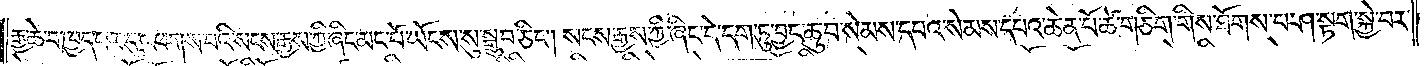རྒྱ་ཆེ་བ་ཁྱད་པར་དུ་འཕགས་པའི་སངས་རྒྱས་ཀྱི་ཞིང་མང་པོ་ཡོངས་སུ་སྒྲུབ་ཅིང༌། སངས་རྒྱས་ཀྱི་ཞིང་དེ་དག་ཏུ་བྱང་ཆུབ་སེམས་དཔའ་སེམས་དཔའ་ཆེན་པོ་ཚེ་གཅིག་གིས་ཐོགས་པ་ཤ་སྟག་སྐྱེ་བར་
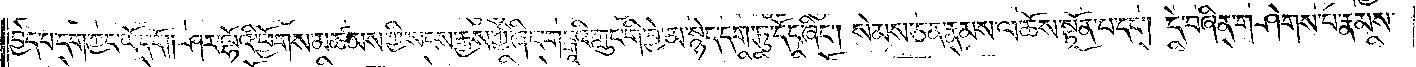བྱེད་པ་དག་ཀྱང་ཡོད་དོ༎ ཤར་ལྷོའི་ཕྱོགས་མཚམས་ཀྱི་སངས་རྒྱས་ཀྱི་ཞིང་གངྒཱའི་ཀླུང་གི་བྱེ་མ་སྙེད་དག་ཏུ་དོང་ཞིང༌། སེམས་ཅན་རྣམས་ལ་ཆོས་སྟོན་པ་དང༌། དེ་བཞིན་གཤེགས་པ་རྣམས་
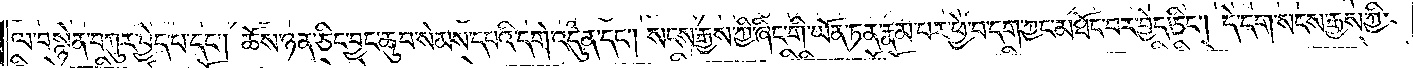ལ་བསྙེན་བཀུར་བྱེད་པ་དང༌། ཆོས་ཉན་ཅིང་བྱང་ཆུབ་སེམས་དཔའི་དགེ་འདུན་དང༌། སངས་རྒྱས་ཀྱི་ཞིང་གི་ཡོན་ཏན་རྣམ་པར་ཕྱེ་བ་དག་ཀྱང་མཐོང་བར་བྱེད་ཅིང༌། དེ་དག་སངས་རྒྱས་ཀྱི་
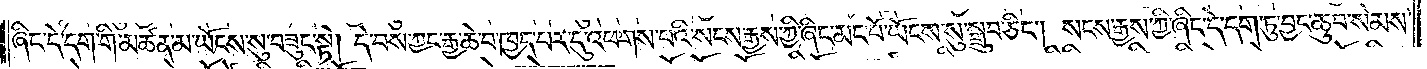ཞིང་དེ་དག་གི་མཚན་མ་ཡོངས་སུ་བཟུང་སྟེ། དེ་བས་ཀྱང་རྒྱ་ཆེ་བ་ཁྱད་པར་དུ་འཕགས་པའི་སངས་རྒྱས་ཀྱི་ཞིང་མང་པོ་ཡོངས་སུ་སྒྲུབ་ཅིང༌། སངས་རྒྱས་ཀྱི་ཞིང་དེ་དག་ཏུ་བྱང་ཆུབ་སེམས་
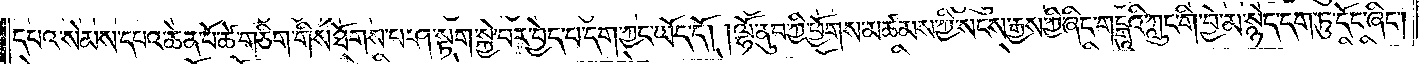དཔའ་སེམས་དཔའ་ཆེན་པོ་ཚེ་གཅིག་གིས་ཐོགས་པ་ཤ་སྟག་སྐྱེ་བར་བྱེད་པ་དག་ཀྱང་ཡོད་དོ། །ལྷོ་ནུབ་ཀྱི་ཕྱོགས་མཚམས་ཀྱི་སངས་རྒྱས་ཀྱི་ཞིང་གངྒཱའི་ཀླུང་གི་བྱེ་མ་སྙེད་དག་ཏུ་དོང་ཞིང༌།
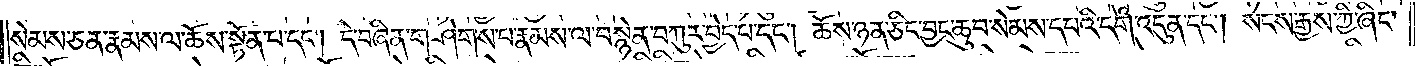སེམས་ཅན་རྣམས་ལ་ཆོས་སྟོན་པ་དང༌། དེ་བཞིན་གཤེགས་པ་རྣམས་ལ་བསྙེན་བཀུར་བྱེད་པ་དང༌། ཆོས་ཉན་ཅིང་བྱང་ཆུབ་སེམས་དཔའི་དགེ་འདུན་དང༌། སངས་རྒྱས་ཀྱི་ཞིང་
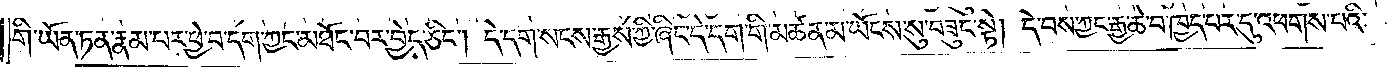གི་ཡོན་ཏན་རྣམ་པར་ཕྱེ་བ་དག་ཀྱང་མཐོང་བར་བྱེད་ཅིང༌། དེ་དག་སངས་རྒྱས་ཀྱི་ཞིང་དེ་དག་གི་མཚན་མ་ཡོངས་སུ་བཟུང་སྟེ། དེ་བས་ཀྱང་རྒྱ་ཆེ་བ་ཁྱད་པར་དུ་འཕགས་པའི་
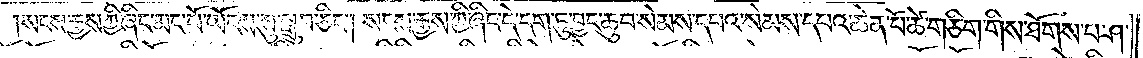སངས་རྒྱས་ཀྱི་ཞིང་མང་པོ་ཡོངས་སུ་སྒྲུབ་ཅིང༌། སངས་རྒྱས་ཀྱི་ཞིང་དེ་དག་ཏུ་བྱང་ཆུབ་སེམས་དཔའ་སེམས་དཔའ་ཆེན་པོ་ཚེ་གཅིག་གིས་ཐོགས་པ་ཤ་
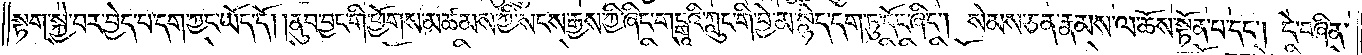སྟག་སྐྱེ་བར་བྱེད་པ་དག་ཀྱང་ཡོད་དོ། །ནུབ་བྱང་གི་ཕྱོགས་མཚམས་ཀྱི་སངས་རྒྱས་ཀྱི་ཞིང་གངྒཱའི་ཀླུང་གི་བྱེ་མ་སྙེད་དག་ཏུ་དོང་ཞིང༌། སེམས་ཅན་རྣམས་ལ་ཆོས་སྟོན་པ་དང༌། དེ་བཞིན་
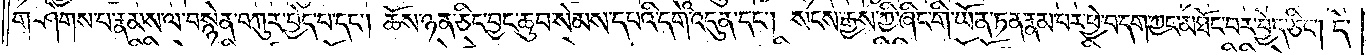གཤེགས་པ་རྣམས་ལ་བསྙེན་བཀུར་བྱེད་པ་དང༌། ཆོས་ཉན་ཅིང་བྱང་ཆུབ་སེམས་དཔའི་དགེ་འདུན་དང༌། སངས་རྒྱས་ཀྱི་ཞིང་གི་ཡོན་ཏན་རྣམ་པར་ཕྱེ་བ་དག་ཀྱང་མཐོང་བར་བྱེད་ཅིང༌། དེ་
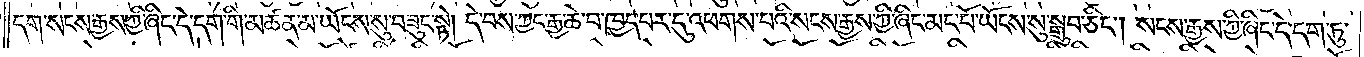དག་སངས་རྒྱས་ཀྱི་ཞིང་དེ་དག་གི་མཚན་མ་ཡོངས་སུ་བཟུང་སྟེ། དེ་བས་ཀྱང་རྒྱ་ཆེ་བ་ཁྱད་པར་དུ་འཕགས་པའི་སངས་རྒྱས་ཀྱི་ཞིང་མང་པོ་ཡོངས་སུ་སྒྲུབ་ཅིང༌། སངས་རྒྱས་ཀྱི་ཞིང་དེ་དག་ཏུ་
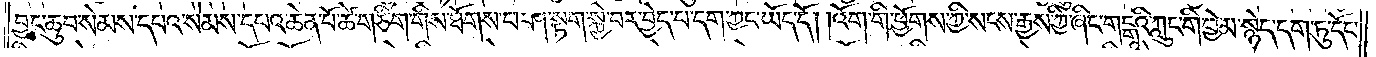བྱང་ཆུབ་སེམས་དཔའ་སེམས་དཔའ་ཆེན་པོ་ཚེ་གཅིག་གིས་ཐོགས་པ་ཤ་སྟག་སྐྱེ་བར་བྱེད་པ་དག་ཀྱང་ཡོད་དོ། །འོག་གི་ཕྱོགས་ཀྱི་སངས་རྒྱས་ཀྱི་ཞིང་གངྒཱའི་ཀླུང་གི་བྱེ་མ་སྙེད་དག་ཏུ་དོང་
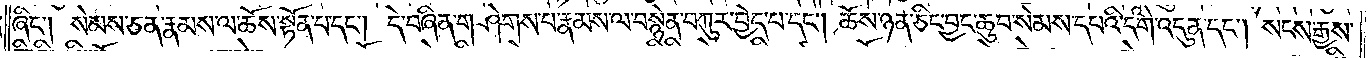ཞིང༌། སེམས་ཅན་རྣམས་ལ་ཆོས་སྟོན་པ་དང༌། དེ་བཞིན་གཤེགས་པ་རྣམས་ལ་བསྙེན་བཀུར་བྱེད་པ་དང༌། ཆོས་ཉན་ཅིང་བྱང་ཆུབ་སེམས་དཔའི་དགེ་འདུན་དང༌། སངས་རྒྱས་
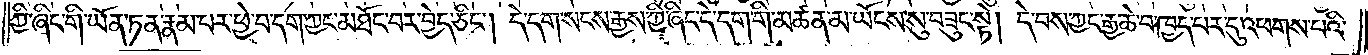ཀྱི་ཞིང་གི་ཡོན་ཏན་རྣམ་པར་ཕྱེ་བ་དག་ཀྱང་མཐོང་བར་བྱེད་ཅིང༌། དེ་དག་སངས་རྒྱས་ཀྱི་ཞིང་དེ་དག་གི་མཚན་མ་ཡོངས་སུ་བཟུང་སྟེ། དེ་བས་ཀྱང་རྒྱ་ཆེ་བ་ཁྱད་པར་དུ་འཕགས་པའི་
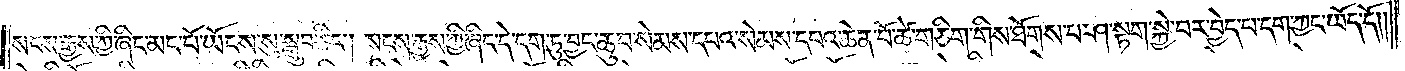སངས་རྒྱས་ཀྱི་ཞིང་མང་པོ་ཡོངས་སུ་སྒྲུབ་ཅིང༌། སངས་རྒྱས་ཀྱི་ཞིང་དེ་དག་ཏུ་བྱང་ཆུབ་སེམས་དཔའ་སེམས་དཔའ་ཆེན་པོ་ཚེ་གཅིག་གིས་ཐོགས་པ་ཤ་སྟག་སྐྱེ་བར་བྱེད་པ་དག་ཀྱང་ཡོད་དོ༎
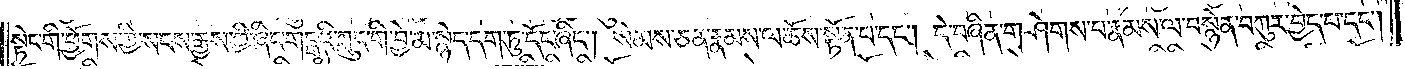སྟེང་གི་ཕྱོགས་ཀྱི་སངས་རྒྱས་ཀྱི་ཞིང་གངྒཱའི་ཀླུང་གི་བྱེ་མ་སྙེད་དག་ཏུ་དོང་ཞིང༌། སེམས་ཅན་རྣམས་ལ་ཆོས་སྟོན་པ་དང༌། དེ་བཞིན་གཤེགས་པ་རྣམས་ལ་བསྙེན་བཀུར་བྱེད་པ་དང༌།
